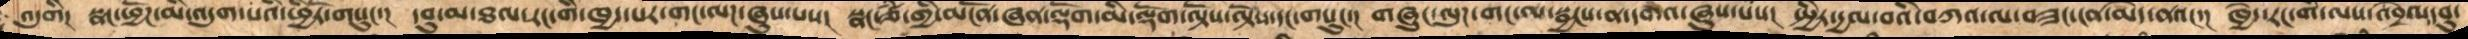འདུགི།  སྣང་ཕྱོཌ་མི་འདུག་པའི་ཕྱིརོ་གསུང་།  དབུ་མ་ཐལ་རང་གི་ཁྱད་པར་གང་ལཌ་ཞུས་པས།  སྣང་ཙཾ་གྱི་མངོན་ཞན་ལྡོག་མི་ལྡོག་ལྟོས་ལྟོས་དང་གསུང་།  གཞུང་ལུཌ་གང་ལ་སྦྱངས་ན་དགའ་ཞུས་པས།  སྤྱིར་དྱལ་བའི་བཀའ་ལ་བཟང་ངན་མེད་ནའང་།  ཁྱེད་རང་གི་ལས་འབྲེལ་བུ་
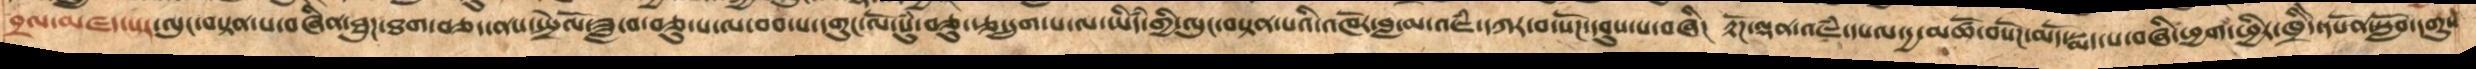བྲལ་མཛད་པར་ལུང་བསྟན་པ་བཞིན་ཐུཌ་ཐག་བཅད་ནས་སྤྲེལོ་ཟླ་བ་བཅུ་པ་ལ་བབ་པ་དགུང་ལོ་སུཾ་བཅུ་རྩ་དྲུག་པ་ལ་ཡིདཾ་གྱི་ལུང་བསྟན་པའི་འཁོར་བླ་མ་འཇཾ་དཀར་བ་སོཌ་དབུས་པ་བཞི།  རྟོཌ་ལྡན་འཇཾ་དཔལ་དྱ་མཚོ་བསོཌ་མདོ་སྨད་པ་བཞི་ཕྱག་ཕྱིར་ཁྲིདེ་དཔོན་སློབ་དགུས
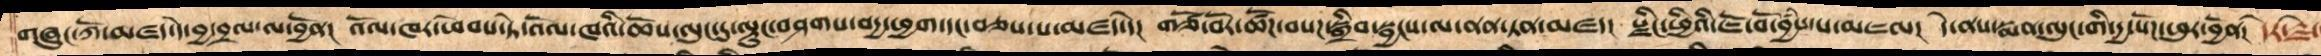གཞུང་ཀོ་མཛད་དེ་བྱ་བྲལ་ལ་བྱོན།  འོལ་ཁར་ཕེབས་ཏེ་འོལ་ཁའི་ཆོས་ལུང་དུ་ལྟུང་བཤགས་བདྱ་ཕྱག་དང་བཅས་པ་མཛད་དོ།  གཙོ་བོར་ཚོཌ་བསཌ་སྒྲིབ་སྦྱངས་ལ་ནན་ཏན་མཛད།  སྫིང་ཕྱིའི་ཇོ་བོ་བྱཾས་པ་མཇལ། དེ་ནས་སྨན་ལུང་གི་དྱ་སོཌ་ཕུར་བྱོན།  དེར་རྗེ་
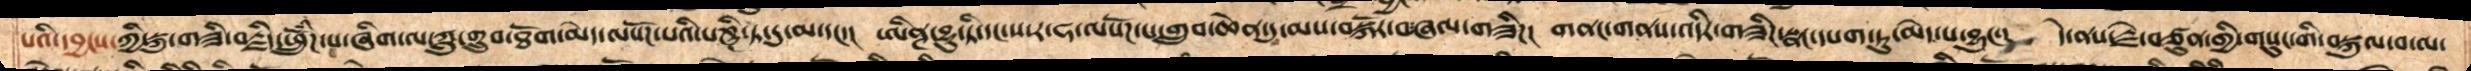པའི་དབྱངས་ཀྱི་སྐུ་གཟི་བརྗིད་ཕྲོུཾཌ་པ་ཞིག་ལ་ཀླུ་གྲུབ་ཐོག་མེད་ལ་སོཌ་པའི་པཎྚཱི་ཏ་དུ་མ་དང་། ཨིནྚ་བྷུ་ཏི་དང་ས་ར་ཧ་ལསོཌ་པ་གྲུབ་ཆེན་དུ་མས་བསྐོར་བ་ཞལ་གཟིཌ། གནང་གནས་འདིར་གཟིཌ་སྣང་དཔག་ཏུ་མེད་པ་བྱུང་།  དེ་ནས་རྗེ་བཙུན་གྱི་གསུང་གི་བསྐུལ་བ་ལ་
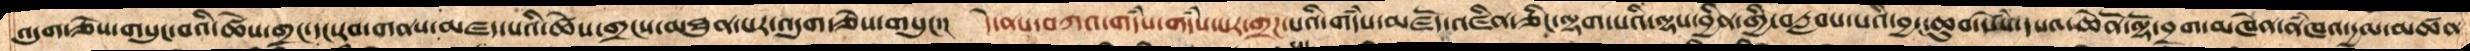འདུག་ཅེས་གསུང་བའི་ཚེས་གྲང་དང་རབ་གནས་མཛད་པའི་ཚེས་གྲངས་མཐུན་པར་འདུག་ཅེས་གསུང་།  དེ་ནས་བཀའ་གདཾས་གདཾས་པར་གྲཌ་པའི་གདཾས་མཛོད་འཛིན་ཅིང་ལྷག་པའི་ལྷས་བྱིན་གྱི་བརླབས་པའི་བྱང་ཆུབ་སེསཾ་དཔའ་ཆེནོ་ལྷོ་བྲག་མཁེན་ནཾཁའ་དྱལ་མཚན་
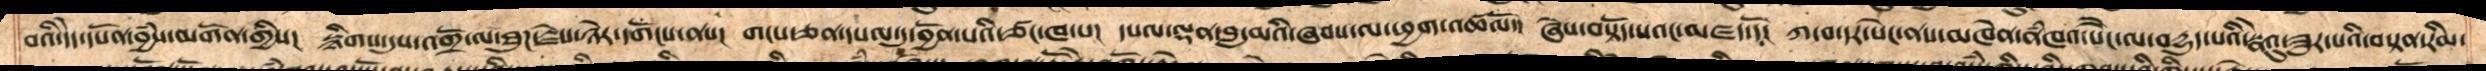བའི་དེད་དཔོན་བྱཾས་མགོན་གྱིས།  སྙིགས་དུས་འགྲོ་ལ་ཐུཌ་རྗེས་ཉེར་དགོངས་ནས།  གངས་ཅན་དཔལ་དུ་བྱོན་པའི་ཙང་ཁ་པ།  དཔལ་ལྡན་བླ་མའི་ཞབས་ལ་ཕྱག་འཚལོ།  ཞེས་བསྟོད་པའང་མཛད་དོ།  ཀ་བ་དར་སེང་ནས་མཁེན་ནཾཁའ་སཻང་ལ་བདྱུད་པའི་སྣེའུ་ཟུར་པའི་བསྟན་རིམ་
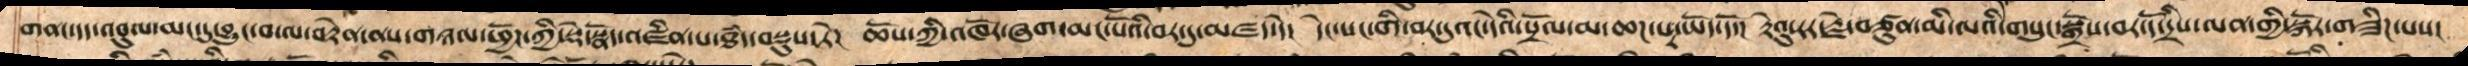གནང་དད་འབུལ་མང་དུ་བྱུང་བ་ལ་བརྟེན་ནས་གཉལ་ཕྱོཌ་ཀྱི་སྡེ་སྣོད་འཛིན་པ་ཐཾད་བསྡུས་ཏེ།  ཆོས་ཀྱི་འཁོར་ཞག་མང་པོའི་བར་དུ་མཛད་དེ།  དེང་སང་གི་བར་དུའང་དེའི་སྲོལ་མ་ཆཌ་པར་ཡོད་དོ།  རྟེའུ་རར་རྗེ་བཙུན་མི་ལའི་གསུང་སྒྲོས་བར་དོ་དྲིས་ལན་གྱི་སྐོར་གཟིཌ་པས་
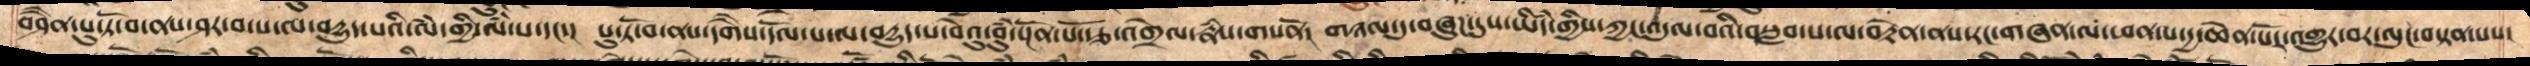བཤཻན་པུ་ཏོ་བ་ནས་ཤར་བ་པ་ལ་བདྱུད་པའི་ལཾ་གྱི་ལཾ་པ་དང་།  པུ་ཏོ་བ་ནས་དགཻས་དོལ་པ་ལ་བདྱུད་པ་བེའུ་བུཾ་སྔོན་པོ་རྩ་འགྲེལ་རྣཾས་གསནོ།  གཉལ་དུ་བཞུཌ་དུས་ཡི་དཾ་གྱིས་ཀྱང་འདུལ་བའི་བསླབ་པ་ལ་བརྟེན་ནས་རང་གཞན་ལ་ཕན་པ་དྱ་ཆེན་པོར་འགྱུར་བར་ལུང་བསྟན་པས།
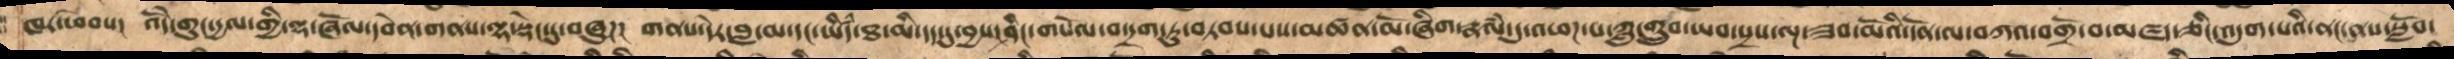ཁར་ཕེབས།  འོདེ་གུང་དྱལ་གྱི་ལྷ་ཞོལ་དབེན་གནས་ལྷ་སྡེང་དུ་བཞུཌ།  གནས་དེར་བླ་མ་དང་ཡིདཾ་ཐ་མི་དད་དུ་བྱས་ཤིང་གསོལ་བ་དྲག་ཏུ་བཏབ་པས་མཚན་མོ་ཞིག་རྣལཾ་དུ་འཕཌ་པ་ཀླུ་གྲུབ་ཡབ་སྲས་ལྔ་ཟབ་མོའི་དོན་ལ་བཀའ་བགྲོ་བ་མཛད་ཅིང་འདུག་པའི་ནང་ནས་སློབ་
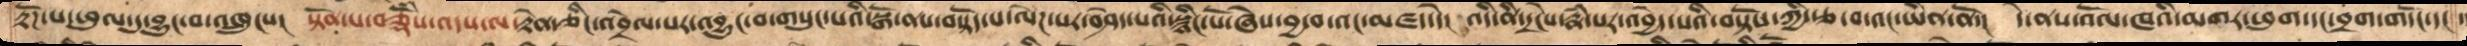རྟོཌ་པ་ཕུལ་དུ་བྱུང་བ་འཁྲུངས། སྟོན་པ་བཅྡོཾས་འདས་ལ་རྟེན་ཅིང་འབྲེལ་པར་འབྱུང་བ་གསུང་པའི་སྒོ་ནས་བསྟོད་པ་ལེཌ་པར་བཤད་པའི་སྙིང་པོ་ཞེས་བྱ་བ་འང་མཛད་དེ།  འདི་ནི་དྲངེས་རྣཾ་པར་འབྱེད་པའི་བསྟོས་ཀྱི་རྩ་བ་འང་ཡིན་ནོ་།  དེ་ནས་འོལ་ཁའི་མགར་ཕུག་དང་བྲག་གདོང་དང་
